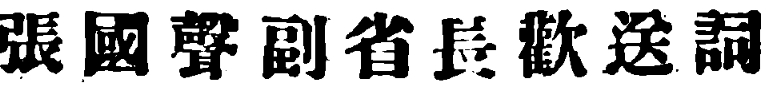張國聲副省長歡送詞
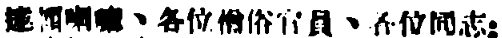達賴喇嘛、各位僧俗官員、各位同志：
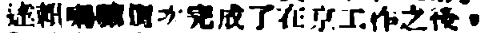達賴喇嘛這次完成了在京工作之後，
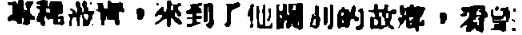專程蒞靑，來到了他闊別的故鄉，看望
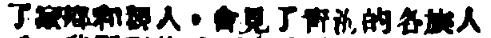了家鄉和親人，會見了靑海的各族人
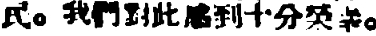民。我們對此感到十分榮幸。
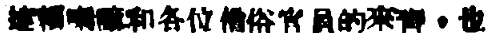達賴喇嘛和各位僧俗官員來靑，也
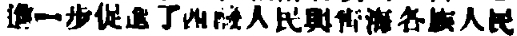進一步促進了西藏人民與靑海各族人民
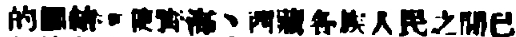的團結，使靑海、西藏各族人民之間已
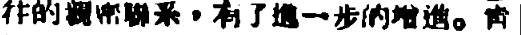往的親密聯系，有了進一步的增進。靑
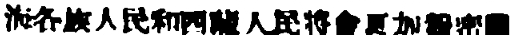海各族人民和西藏人民將會更加親密團
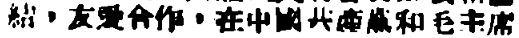結，友愛合作，在中國共產黨和毛主席
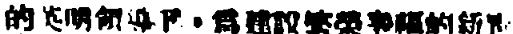的英明領導下，爲建設繁榮幸福的新靑
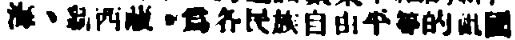海、新西藏，爲各民族自由平等的祖國
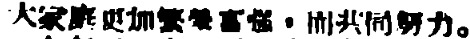大家庭更加繁榮富強，而共同努力。
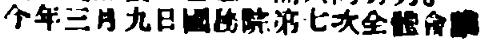今年三月九日國務院第七次全體會議
